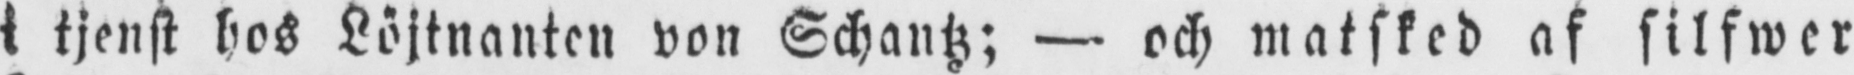i tjenst hos Löjtnanten von Schantz; — och matsked af silfwer
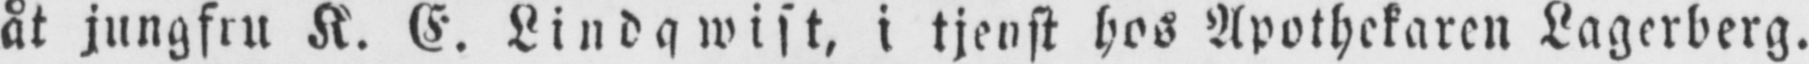åt jungfru K. C. Lindaqwist, i tjenst hos Apothekaren Lagerberg.
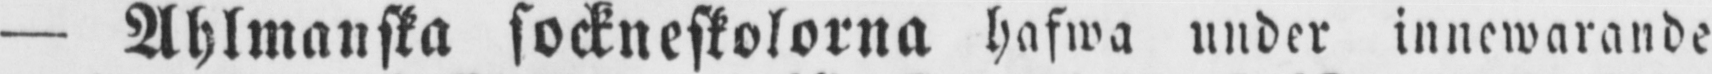— Ahlmanska sockneskolorna hafwa under innewarande
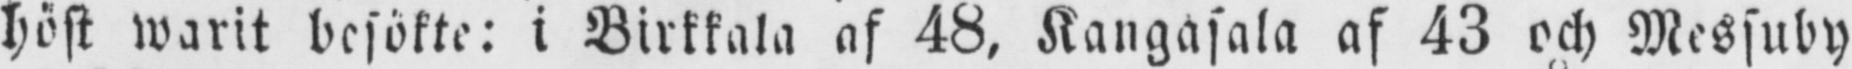höst warit besökte: i Birkkala af 48, Kangasala af 43 och Messuby
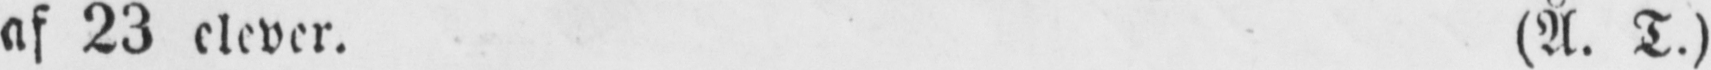af 23 elever. (Å. T.)
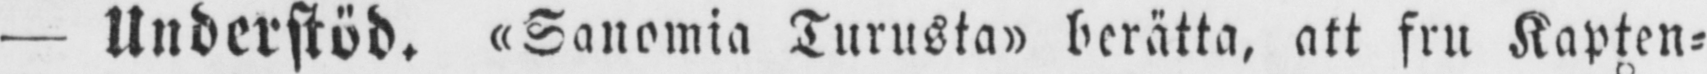— Understöd. »Sanomia Turusta» berätta, att fru Kapten-
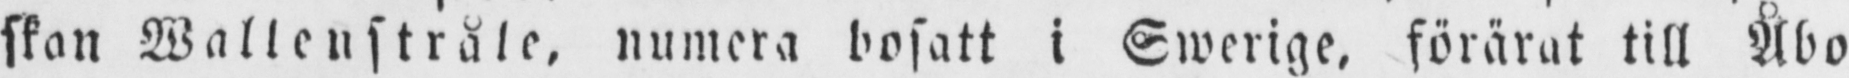skan Wallenstråle, numera bosatt i Swerige, förärat till Åbo
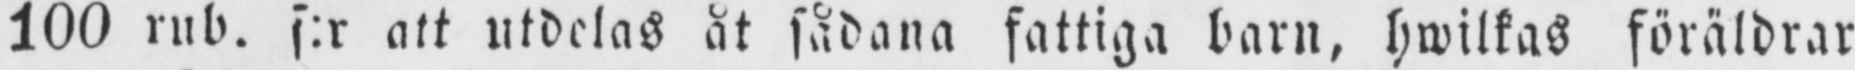100 rub. s:r att utdelas åt sådana fattiga barn, hwilkas föräldrar
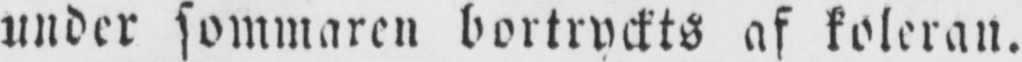under sommaren bortryckts af koleran.
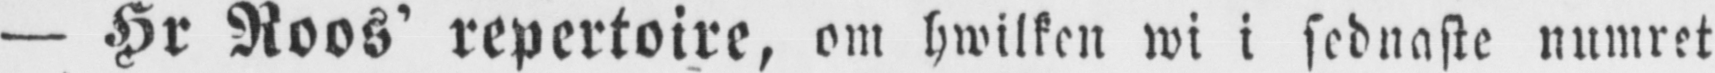— Hr Roos' repertoire, om hwilken wi i sednaste numret
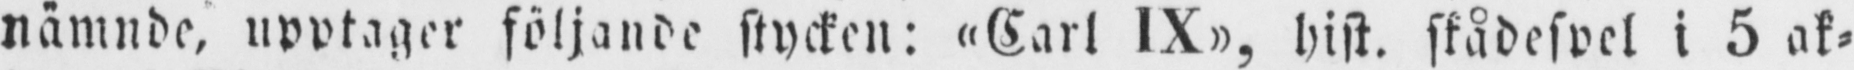nämnde, upptager följande stycken: «Carl IX», hist. skådespel i 5 ak-
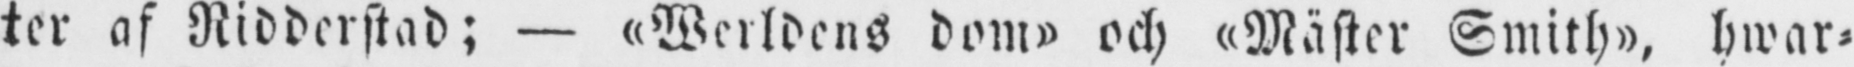ter af Ridderstad; — «Werldens dom» och «Mäster Smith», hwar-
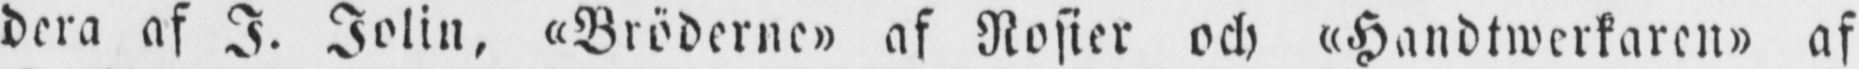dera af I. Jolin, «Bröderne» af Nosier och «Handtwerkaren» af
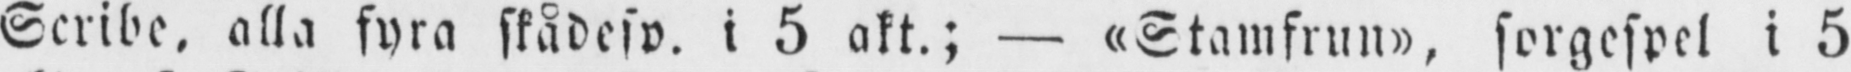Scribe, alla fyra skådesp. i 5 akt.; — »Stamfrun», sorgespel i 5
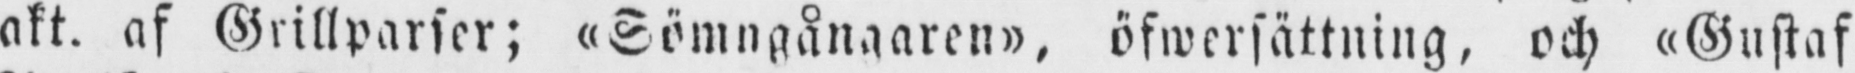akt. af Grillparser; «Sömngångaren», öfwersättning, och «Gustaf
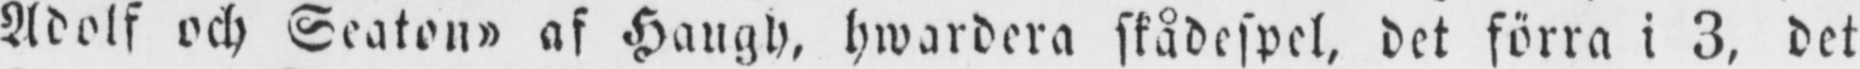Adolf och Seaton» af Haugh, hwardera skådespel, det förra i 3, det
